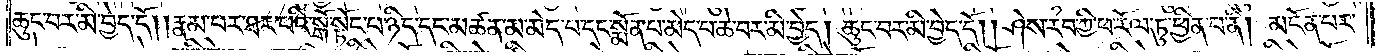ཆུང་བར་མི་བྱེད་དོ། །རྣམ་པར་ཐར་པའི་སྒོ་སྟོང་པ་ཉིད་དང་མཚན་མ་མེད་པ་དང་སྨོན་པ་མེད་པ་ཆེ་བར་མི་བྱེད། ཆུང་བར་མི་བྱེད་དོ། །ཤེས་རབ་ཀྱི་ཕ་རོལ་ཏུ་ཕྱིན་པ་ནི། མངོན་པར་
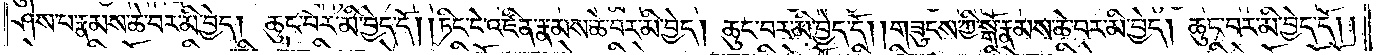ཤེས་པ་རྣམས་ཆེ་བར་མི་བྱེད། ཆུང་བར་མི་བྱེད་དོ། །ཏིང་ངེ་འཛིན་རྣམས་ཆེ་བར་མི་བྱེད། ཆུང་བར་མི་བྱེད་དོ། །གཟུངས་ཀྱི་སྒོ་རྣམས་ཆེ་བར་མི་བྱེད། ཆུང་བར་མི་བྱེད་དོ། །
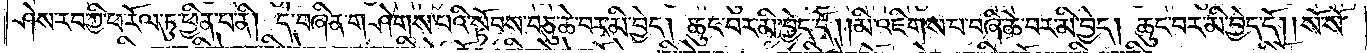ཤེས་རབ་ཀྱི་ཕ་རོལ་ཏུ་ཕྱིན་པ་ནི། དེ་བཞིན་གཤེགས་པའི་སྟོབས་བཅུ་ཆེ་བར་མི་བྱེད། ཆུང་བར་མི་བྱེད་དོ། །མི་འཇིགས་པ་བཞི་ཆེ་བར་མི་བྱེད། ཆུང་བར་མི་བྱེད་དོ། །སོ་སོ་
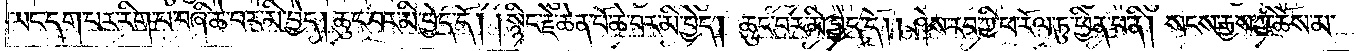ཡང་དག་པར་རིག་པ་བཞི་ཆེ་བར་མི་བྱེད། ཆུང་བར་མི་བྱེད་དོ། །སྙིང་རྗེ་ཆེན་པོ་ཆེ་བར་མི་བྱེད། ཆུང་བར་མི་བྱེད་དོ། །ཤེས་རབ་ཀྱི་ཕ་རོལ་ཏུ་ཕྱིན་པ་ནི། སངས་རྒྱས་ཀྱི་ཆོས་མ་
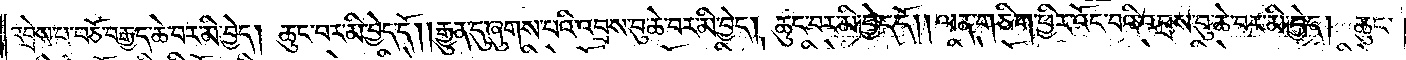འབྲེས་པ་བཅོ་བརྒྱད་ཆེ་བར་མི་བྱེད། ཆུང་བར་མི་བྱེད་དོ། །རྒྱུན་དུ་ཞུགས་པའི་འབྲས་བུ་ཆེ་བར་མི་བྱེད། ཆུང་བར་མི་བྱེད་དོ། །ལན་གཅིག་ཕྱིར་འོང་བའི་འབྲས་བུ་ཆེ་བར་མི་བྱེད། ཆུང་
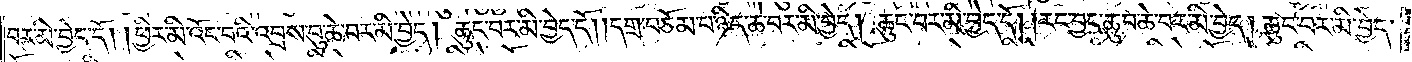བར་མི་བྱེད་དོ། །ཕྱིར་མི་འོང་བའི་འབྲས་བུ་ཆེ་བར་མི་བྱེད། ཆུང་བར་མི་བྱེད་དོ། །དགྲ་བཅོམ་པ་ཉིད་ཆེ་བར་མི་བྱེད། ཆུང་བར་མི་བྱེད་དོ། །རང་བྱང་ཆུབ་ཆེ་བར་མི་བྱེད། ཆུང་བར་མི་བྱེད་
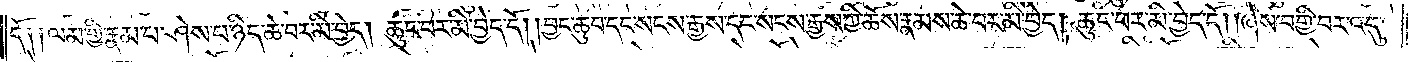དོ༑ ༑ལམ་གྱི་རྣམ་པ་ཤེས་པ་ཉིད་ཆེ་བར་མི་བྱེད། ཆུང་བར་མི་བྱེད་དོ། །བྱང་ཆུབ་དང་སངས་རྒྱས་དང་སངས་རྒྱས་ཀྱི་ཆོས་རྣམས་ཆེ་བར་མི་བྱེད། ཆུང་བར་མི་བྱེད་དོ། །ཞེས་བགྱི་བར་འདུ་
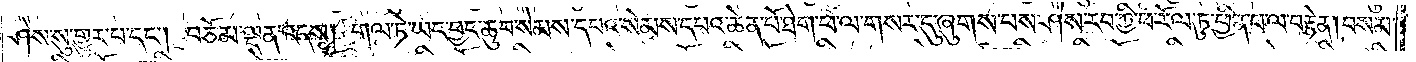ཤེས་སུ་གྱུར་པ་དང༌། བཅོམ་ལྡན་འདས། གལ་ཏེ་ཡང་བྱང་ཆུབ་སེམས་དཔའ་སེམས་དཔའ་ཆེན་པོ་ཐེག་པ་ལ་གསར་དུ་ཞུགས་པས་ཤེས་རབ་ཀྱི་ཕ་རོལ་ཏུ་ཕྱིན་པ་ལ་བརྟེན། བསམ་
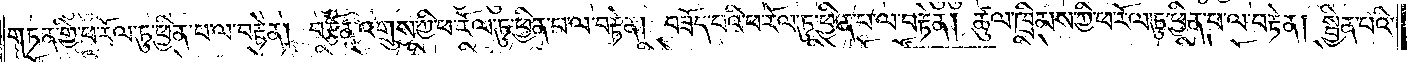གཏན་གྱི་ཕ་རོལ་ཏུ་ཕྱིན་པ་ལ་བརྟེན། བརྩོན་འགྲུས་ཀྱི་ཕ་རོལ་ཏུ་ཕྱིན་པ་ལ་བརྟེན། བཟོད་པའི་ཕ་རོལ་ཏུ་ཕྱིན་པ་ལ་བརྟེན། ཚུལ་ཁྲིམས་ཀྱི་ཕ་རོལ་ཏུ་ཕྱིན་པ་ལ་བརྟེན། སྦྱིན་པའི་
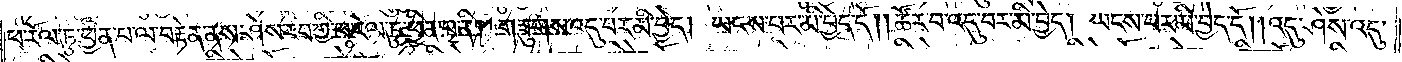ཕ་རོལ་ཏུ་ཕྱིན་པ་ལ་བརྟེན་ནས་ཤེས་རབ་ཀྱི་ཕ་རོལ་ཏུ་ཕྱིན་པ་ནི། གཟུགས་འདུ་བར་མི་བྱེད། ཡངས་པར་མི་བྱེད་དོ། །ཚོར་བ་འདུ་བར་མི་བྱེད། ཡངས་པར་མི་བྱེད་དོ། །འདུ་ཤེས་འདུ་
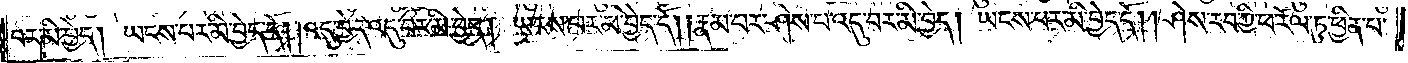བར་མི་བྱེད། ཡངས་པར་མི་བྱེད་དོ། །འདུ་བྱེད་འདུ་བར་མི་བྱེད། ཡངས་པར་མི་བྱེད་དོ། །རྣམ་པར་ཤེས་པ་འདུ་བར་མི་བྱེད། ཡངས་པར་མི་བྱེད་དོ། །ཤེས་རབ་ཀྱི་ཕ་རོལ་ཏུ་ཕྱིན་པ་
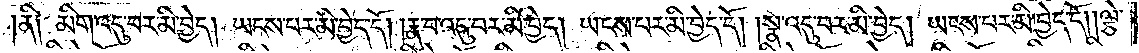ནི༑ མིག་འདུ་བར་མི་བྱེད། ཡངས་པར་མི་བྱེད་དོ། །རྣ་བ་འདུ་བར་མི་བྱེད། ཡངས་པར་མི་བྱེད་དོ། །སྣ་འདུ་བར་མི་བྱེད། ཡངས་པར་མི་བྱེད་དོ། །ལྕེ་
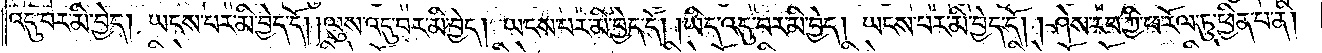འདུ་བར་མི་བྱེད། ཡངས་པར་མི་བྱེད་དོ། །ལུས་འདུ་བར་མི་བྱེད། ཡངས་པར་མི་བྱེད་དོ། །ཡིད་འདུ་བར་མི་བྱེད། ཡངས་པར་མི་བྱེད་དོ། །ཤེས་རབ་ཀྱི་ཕ་རོལ་ཏུ་ཕྱིན་པ་ནི།
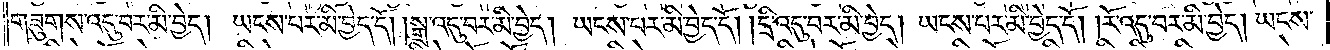གཟུགས་འདུ་བར་མི་བྱེད། ཡངས་པར་མི་བྱེད་དོ། །སྒྲ་འདུ་བར་མི་བྱེད་ཡངས་པར་མི་བྱེད་དོ། །དྲི་འདུ་བར་མི་བྱེད། ཡངས་པར་མི་བྱེད་དོ། །རོ་འདུ་བར་མི་བྱེད། ཡངས་
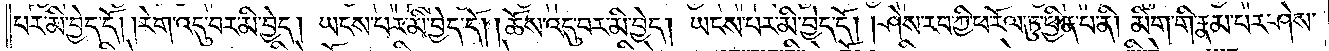པར་མི་བྱེད་དོ། །རེག་འདུ་བར་མི་བྱེད། ཡངས་པར་མི་བྱེད་དོ། །ཆོས་འདུ་བར་མི་བྱེད། ཡངས་པར་མི་བྱེད་དོ། །ཤེས་རབ་ཀྱི་ཕ་རོལ་ཏུ་ཕྱིན་པ་ནི། མིག་གི་རྣམ་པར་ཤེས་
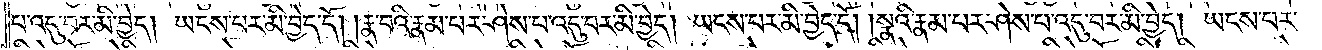པ་འདུ་བར་མི་བྱེད། ཡངས་པར་མི་བྱེད་དོ། །རྣ་བའི་རྣམ་པར་ཤེས་པ་འདུ་བར་མི་བྱེད། ཡངས་པར་མི་བྱེད་དོ། །སྣའི་རྣམ་པར་ཤེས་པ་འདུ་བར་མི་བྱེད། ཡངས་པར་
